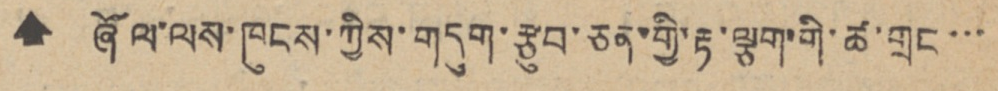🠹 ཞོལ་ལས་ཁུངས་ཀྱིས་གདུག་རྩུབ་ཅན་གྱི་རྟ་ལྕག་གི་ཚ་གྲང་་་
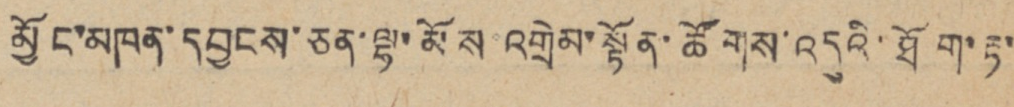མྱོང་མཁན་དབྱངས་ཅན་ལྷ་མོས འགྲེམ་སྟོན་ཚོགས་འདུའི་ཐོག་རྟ་
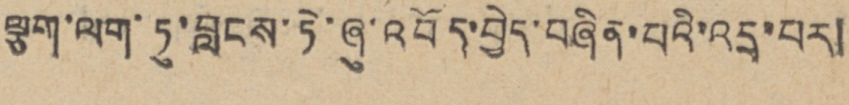ལྕག་ལག་ཏུ་བླངས་ཏེ་ཞུ་འབོད་བྱེད་བཞིན་པའི་འདྲ་པར།
